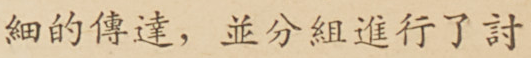細的傳達，並分組進行了討
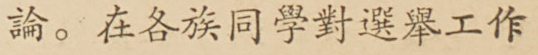論。在各族同學對選舉工作
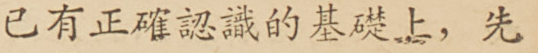已有正確認識的基礎上，先
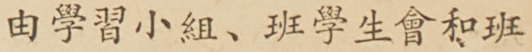由學習小組、班學生會和班
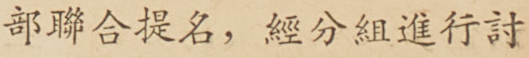部聯合提名，經分組進行討
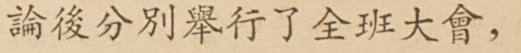論後分別舉行了全班大會，
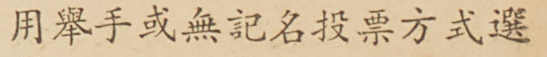用舉手或無記名投票方式選
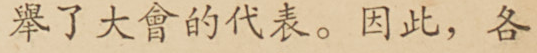舉了大會的代表。因此，各
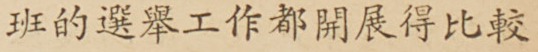班的選舉工作都開展得比較
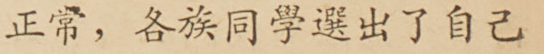正常，各族同學選出了自己
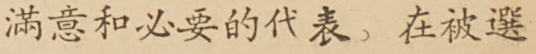滿意和必要的代表。在被選
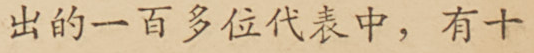出的一百多位代表中，有十
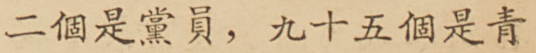二個是黨員，九十五個是青
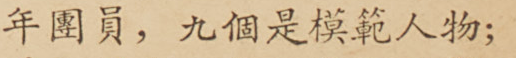年團員，九個是模範人物；
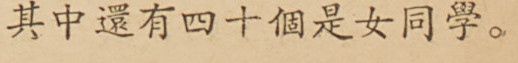其中還有四十個是女同學。
